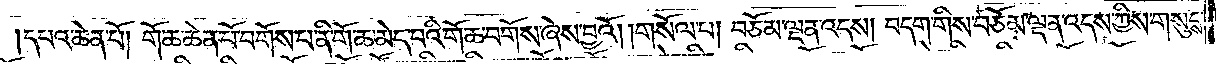དཔའ་ཆེན་པོ། གོ་ཆ་ཆེན་པོ་བགོས་པ་ནི་གོ་ཆ་མེད་པའི་གོ་ཆ་བགོས་ཞེས་བྱའོ། །གསོལ་པ། བཅོམ་ལྡན་འདས། བདག་གིས་བཅོམ་ལྡན་འདས་ཀྱི་གསུངས་
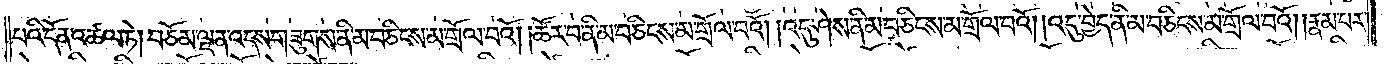པའི་དོན་འཚལ་ཏེ། བཅོམ་ལྡན་འདས་གཟུགས་ནི་མ་བཅིངས་མ་གྲོལ་བའོ། །ཚོར་བ་ནི་མ་བཅིངས་མ་གྲོལ་བའོ། །འདུ་ཤེས་ནི་མི་བཅིངས་མ་གྲོལ་བའོ། །འདུ་བྱེད་ནི་མ་བཅིངས་མ་གྲོལ་བའོ། །རྣམ་པར་
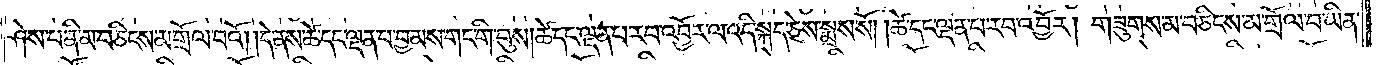ཤེས་པ་ནི་མ་བཅིངས་མ་གྲོལ་བའོ། །དེ་ནས་ཚེ་དང་ལྡན་པ་བྱམས་གང་གི་བུས། ཚེ་དང་ལྡན་པ་རབ་འབྱོར་ལ་འདི་སྐད་ཅེས་སྨྲས་སོ། །ཚེ་དང་ལྡན་པ་རབ་འབྱོར། གཟུགས་མ་བཅིངས་མ་གྲོལ་བ་ཡིན་
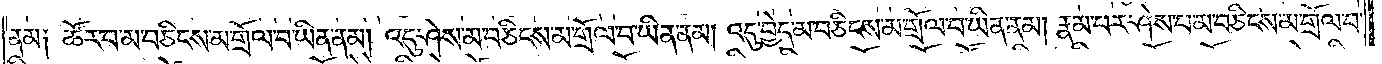ནམ། ཚོར་བ་མ་བཅིངས་མ་གྲོལ་བ་ཡིན་ནམ། འདུ་ཤེས་མ་བཅིངས་མ་གྲོལ་བ་ཡིན་ནམ། འདུ་བྱེད་མ་བཅིངས་མ་གྲོལ་བ་ཡིན་ནམ། རྣམ་པར་ཤེས་པ་མ་བཅིངས་མ་གྲོལ་བ་
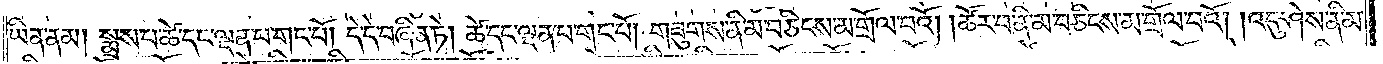ཡིན་ནམ། སྨྲས་པ་ཚེ་དང་ལྡན་པ་གང་པོ། དེ་དེ་བཞིན་ཏེ། ཚེ་དང་ལྡན་པ་གང་པོ། གཟུགས་ནི་མ་བཅིངས་མ་གྲོལ་བའོ། །ཚོར་བ་ནི་མ་བཅིངས་མ་གྲོལ་བའོ། །འདུ་ཤེས་ནི་མ་
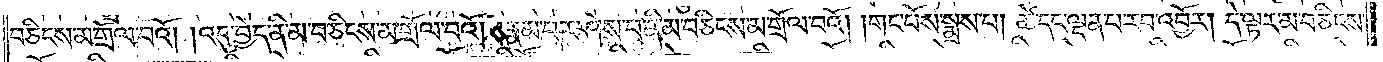བཅིངས་མ་གྲོལ་བའོ། །འདུ་བྱེད་ནི་མ་བཅིངས་མ་གྲོལ་བའོ། །རྣམ་པར་ཤེས་པ་ནི་མ་བཅིངས་མ་གྲོལ་བའོ། །གང་པོས་སྨྲས་པ། ཚེ་དང་ལྡན་པ་རབ་འབྱོར། དེ་ལྟར་མ་བཅིངས་
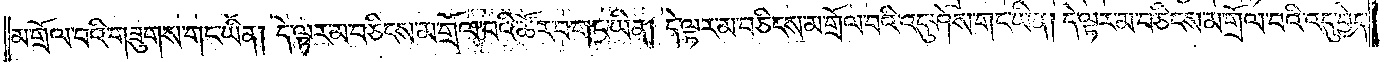མ་གྲོལ་བའི་གཟུགས་གང་ཡིན། དེ་ལྟར་མ་བཅིངས་མ་གྲོལ་བའི་ཚོར་བ་གང་ཡིན། དེ་ལྟར་མ་བཅིངས་མ་གྲོལ་བའི་འདུ་ཤེས་གང་ཡིན། དེ་ལྟར་མ་བཅིངས་མ་གྲོལ་བའི་འདུ་བྱེད་
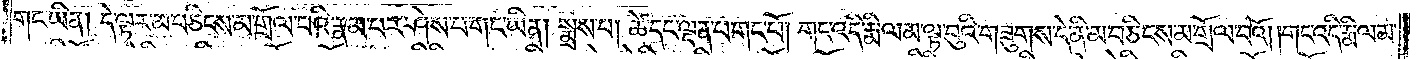གང་ཡིན། དེ་ལྟར་མ་བཅིངས་མ་གྲོལ་བའི་རྣམ་པར་ཤེས་པ་གང་ཡིན། སྨྲས་པ། ཚེ་དང་ལྡན་པ་གང་པོ། གང་འདི་རྨི་ལམ་ལྟ་བུའི་གཟུགས་དེ་ནི་མ་བཅིངས་མ་གྲོལ་བའོ། །གང་འདི་རྨི་ལམ་
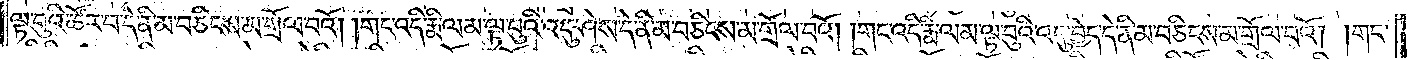ལྟ་བུའི་ཚོར་བ་དེ་ནི་མ་བཅིངས་མ་གྲོལ་བའོ། །གང་འདི་རྨི་ལམ་ལྟ་བུའི་འདུ་ཤེས་དེ་ནི་མ་བཅིངས་མ་གྲོལ་བའོ། །གང་འདི་རྨི་ལམ་ལྟ་བུའི་འདུ་བྱེད་དེ་ནི་མ་བཅིངས་མ་གྲོལ་བའོ། །གང་
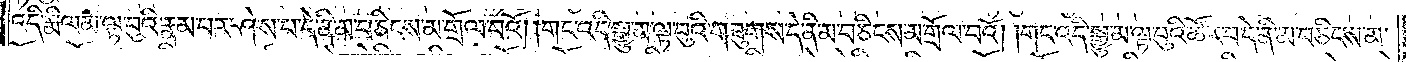འདི་རྨི་ལམ་ལྟ་བུའི་རྣམ་པར་ཤེས་པ་དེ་ནི་མ་བཅིངས་མ་གྲོལ་བའོ། །གང་འདི་སྒྱུ་མ་ལྟ་བུའི་གཟུགས་དེ་ནི་མ་བཅིངས་མ་གྲོལ་བའོ། །གང་འདི་སྒྱུ་མ་ལྟ་བུའི་ཚོར་བ་དེ་ནི་མ་བཅིངས་མ་
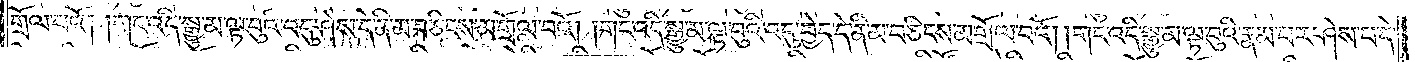གྲོལ་བའོ། །གང་འདི་སྒྱུ་མ་ལྟ་བུའི་འདུ་ཤེས་དེ་ནི་མ་བཅིངས་མ་གྲོལ་བའོ། །གང་འདི་སྒྱུ་མ་ལྟ་བུའི་འདུ་བྱེད་དེ་ནི་མ་བཅིངས་མ་གྲོལ་བའོ། །གང་འདི་སྒྱུ་མ་ལྟ་བུའི་རྣམ་པར་ཤེས་པ་དེ་
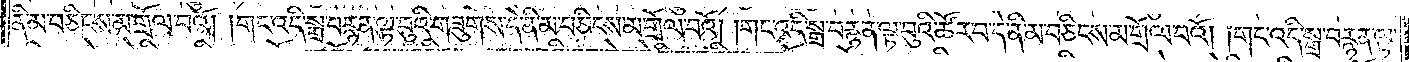ནི་མ་བཅིངས་མ་གྲོལ་བའོ། །གང་འདི་སྒྲ་བརྙན་ལྟ་བུའི་གཟུགས་དེ་ནི་མ་བཅིངས་མ་གྲོལ་བའོ། །གང་འདི་སྒྲ་བརྙན་ལྟ་བུའི་ཚོར་བ་དེ་ནི་མ་བཅིངས་མ་གྲོལ་བའོ། །གང་འདི་སྒྲ་བརྙན་ལྟ་
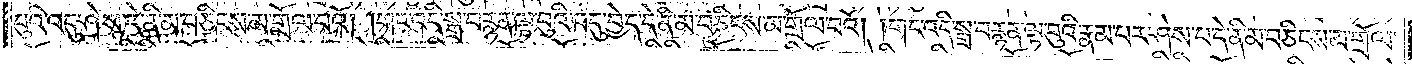བུའི་འདུ་ཤེས་དེ་ནི་མ་བཅིངས་མ་གྲོལ་བའོ། །གང་འདི་སྒྲ་བརྙན་ལྟ་བུའི་འདུ་བྱེད་དེ་ནི་མ་བཅིངས་མ་གྲོལ་བའོ། །གང་འདི་སྒྲ་བརྙན་ལྟ་བུའི་རྣམ་པར་ཤེས་པ་དེ་ནི་མ་བཅིངས་མ་གྲོལ་
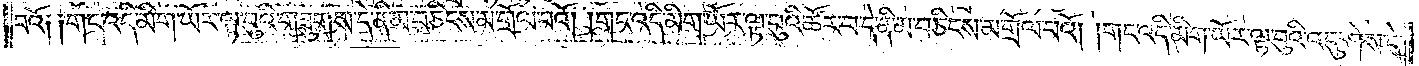བའོ། །གང་འདི་མིག་ཡོར་ལྟ་བུའི་གཟུགས་དེ་ནི་མ་བཅིངས་མ་གྲོལ་བའོ། །གང་འདི་མིག་ཡོར་ལྟ་བུའི་ཚོར་བ་དེ་ནི་མ་བཅིངས་མ་གྲོལ་བའོ། །གང་འདི་མིག་ཡོར་ལྟ་བུའི་འདུ་ཤེས་དེ་
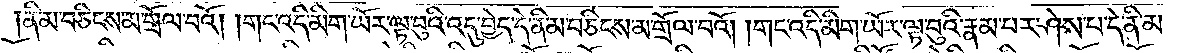ནི་མ་བཅིངས་མ་གྲོལ་བའོ། །གང་འདི་མིག་ཡོར་ལྟ་བུའི་འདུ་བྱེད་དེ་ནི་མ་བཅིངས་མ་གྲོལ་བའོ། །གང་འདི་མིག་ཡོར་ལྟ་བུའི་རྣམ་པར་ཤེས་པ་དེ་ནི་མ་
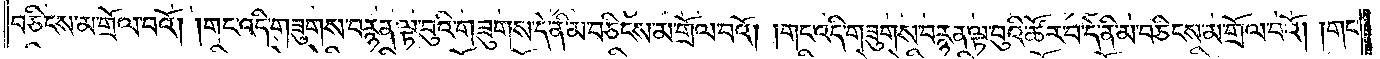བཅིངས་མ་གྲོལ་བའོ། །གང་འདི་གཟུགས་བརྙན་ལྟ་བུའི་གཟུགས་དེ་ནི་མ་བཅིངས་མ་གྲོལ་བའོ། །གང་འདི་གཟུགས་བརྙན་ལྟ་བུའི་ཚོར་བ་དེ་ནི་མ་བཅིངས་མ་གྲོལ་བའོ། །གང་
